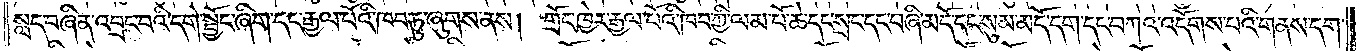སླད་བཞིན་འབྲང་བའི་དགེ་སྦྱོང་ཞིག་དང་རྒྱལ་པོའི་ཁབ་ཏུ་ཞུགས་ནས། གྲོང་ཁྱེར་རྒྱལ་པོའི་ཁབ་ཀྱི་ལམ་པོ་ཆེ་དང་སྲང་དང་བཞི་མདོ་དང་སུམ་མདོ་དག་དང་བཀའ་འདོགས་པའི་གནས་དག་
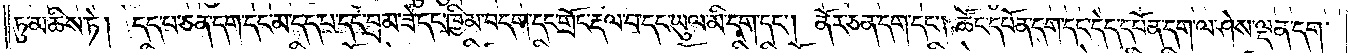ཏུ་མཆིས་ཏེ། དད་པ་ཅན་དག་དང་མ་དད་པ་དང་བྲམ་ཟེ་དང་ཁྱིམ་བདག་དང་གྲོང་རྡལ་བ་དང་ཡུལ་མི་དག་དང༌། ནོར་ཅན་དག་དང༌། ཚོང་དཔོན་དག་དང་དེད་དཔོན་དག་ལ་ཤེས་ལྡན་དག་
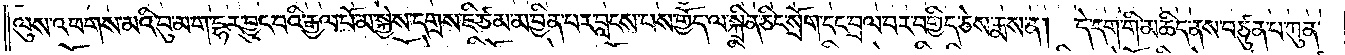ལུས་འཕགས་མའི་བུ་མ་ག་དྷར་བྱུང་བའི་རྒྱལ་པོ་མ་སྐྱེས་དགྲས་ཇི་ཙམ་མ་བྱིན་པར་བླངས་པས་གྱོད་ལ་སྐྲིན་ཅིང་སྲོག་དང་བྲལ་བར་བགྱིད་ཅེས་རྨས་ན། དེ་དག་གི་མཆིད་ནས་བཙུན་པ་ཀུན་
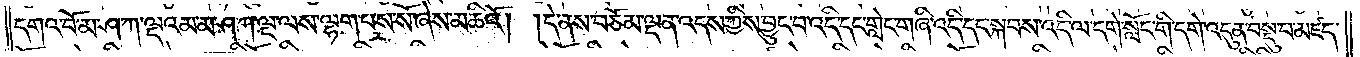དགའ་བོ་མ་ཤ་ཀ་ལྔའམ་མ་ཤ་ཀ་ལྔ་ལས་ལྷག་པས་སོ་ཞེས་མཆིའོ། །དེ་ནས་བཅོམ་ལྡན་འདས་ཀྱིས་བྱུང་བ་འདི་དང་གླེང་གཞི་འདི་དང་སྐབས་འདི་ལ་དགེ་སློང་གི་དགེ་འདུན་བསྡུ་བ་མཛད་
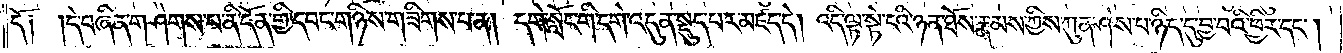དོ༑ ༑དེ་བཞིན་གཤེགས་པ་ནི་དོན་གྱི་དབང་གཉིས་གཟིགས་པ་ན། དགེ་སློང་གི་དགེ་འདུན་སྡུད་པར་མཛད་དེ། འདི་ལྟ་སྟེ་ངའི་ཉན་ཐོས་རྣམས་ཀྱིས་ཀུན་ཤེས་པ་ཉིད་དུ་བྱ་བའི་ཕྱིར་དང༌།
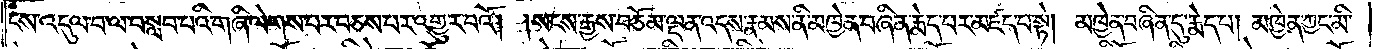ངས་འདུལ་བ་ལ་བསླབ་པའི་གཞི་ལེགས་པར་བཅས་པར་འགྱུར་བའོ། །སངས་རྒྱས་བཅོམ་ལྡན་འདས་རྣམས་ནི་མཁྱེན་བཞིན་རྨེད་པར་མཛད་པ་སྟེ། མཁྱེན་བཞིན་དུ་རྨེད་པ། མཁྱེན་ཀྱང་མི་
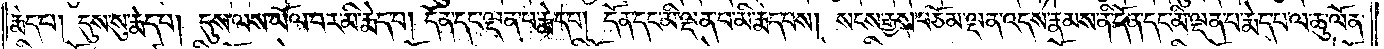རྨེད་པ། དུས་སུ་རྨེད་པ། དུས་ལས་ཡོལ་བར་མི་རྨེད་པ། དོན་དང་ལྡན་པ་རྨེད་པ། དོན་དང་མི་ལྡན་པ་མི་རྨེད་པས། སངས་རྒྱས་བཅོམ་ལྡན་འདས་རྣམས་ནི་དོན་དང་མི་ལྡན་པ་རྨེད་པ་ལ་ཆུ་ལོན་
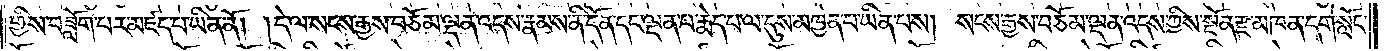གྱིས་བཟློག་པར་མཛད་པ་ཡིན་ནོ། །དེ་ལ་སངས་རྒྱས་བཅོམ་ལྡན་འདས་རྣམས་ནི་དོན་དང་ལྡན་པ་རྨེད་པ་ལ་དུས་མཁྱེན་པ་ཡིན་པས། སངས་རྒྱས་བཅོམ་ལྡན་འདས་ཀྱིས་སྔོན་རྫ་མཁན་དགེ་སློང་
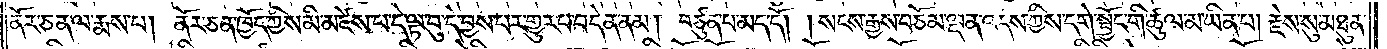ནོར་ཅན་ལ་རྨས་པ། ནོར་ཅན་ཁྱོད་ཀྱིས་མི་མཛེས་པ་དེ་ལྟ་བུ་དེ་བྱས་པར་གྱུར་པ་བདེན་ནམ། བཙུན་པ་མད་དོ། །སངས་རྒྱས་བཅོམ་ལྡན་འདས་ཀྱིས་དགེ་སྦྱོང་གི་ཚུལ་མ་ཡིན་པ། རྗེས་སུ་མཐུན་
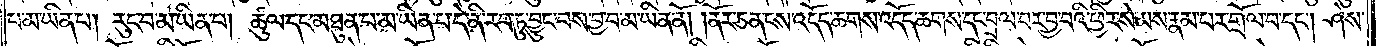པ་མ་ཡིན་པ། རུང་བ་མ་ཡིན་པ། ཚུལ་དང་མཐུན་པ་མ་ཡིན་པ་དེ་ནི་རབ་ཏུ་བྱུང་བས་བྱ་བ་མ་ཡིན་ནོ། །ནོར་ཅན་ངས་འདོད་ཆགས་འདོད་ཆགས་དང་བྲལ་བར་བྱ་བའི་ཕྱིར་སེམས་རྣམ་པར་གྲོལ་བ་དང༌། ཤེས་
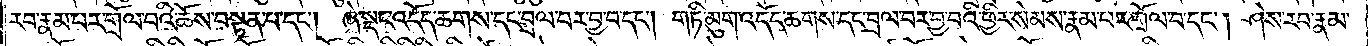རབ་རྣམ་པར་གྲོལ་བའི་ཆོས་བསྟན་པ་དང༌། ཞེ་སྡང་འདོད་ཆགས་དང་བྲལ་བར་བྱ་བ་དང༌། གཏི་མུག་འདོད་ཆགས་དང་བྲལ་བར་བྱ་བའི་ཕྱིར་སེམས་རྣམ་པར་གྲོལ་བ་དང༌། ཤེས་རབ་རྣམ་
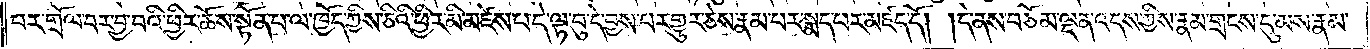པར་གྲོལ་བར་བྱ་བའི་ཕྱིར་ཆོས་སྟོན་པ་ལ་ཁྱོད་ཀྱིས་ཅིའི་ཕྱིར་མི་མཛེས་པ་དེ་ལྟ་བུ་དེ་བྱས་པར་གྱུར་ཅེས་རྣམ་པར་སྨད་པར་མཛད་དོ། །དེ་ནས་བཅོམ་ལྡན་འདས་ཀྱིས་རྣམ་གྲངས་དུ་མས་རྣམ་
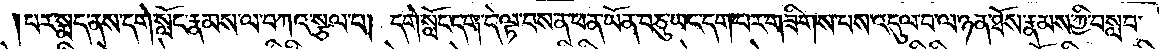པར་སྨད་ནས་དགེ་སློང་རྣམས་ལ་བཀའ་སྩལ་པ། དགེ་སློང་དག་དེ་ལྟ་བས་ན་ཕན་ཡོན་བཅུ་ཡང་དག་པར་གཟིགས་པས་འདུལ་བ་ལ་ཉན་ཐོས་རྣམས་ཀྱི་བསླབ་
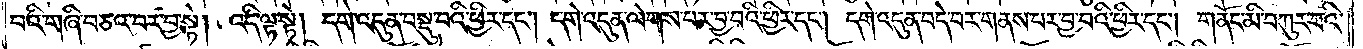པའི་གཞི་བཅའ་བར་བྱ་སྟེ། འདི་ལྟ་སྟེ། དགེ་འདུན་བསྡུ་བའི་ཕྱིར་དང༌། དགེ་འདུན་ལེགས་པར་བྱ་བའི་ཕྱིར་དང༌། དགེ་འདུན་བདེ་བར་གནས་པར་བྱ་བའི་ཕྱིར་དང༌། གནོང་མི་བཀུར་བའི་
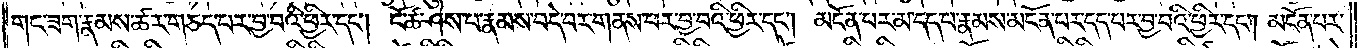གང་ཟག་རྣམས་ཚར་གཅད་པར་བྱ་བའི་ཕྱིར་དང༌། ངོ་ཚ་ཤེས་པ་རྣམས་བདེ་བར་གནས་པར་བྱ་བའི་ཕྱིར་དང༌། མངོན་པར་མ་དད་པ་རྣམས་མངོན་པར་དད་པར་བྱ་བའི་ཕྱིར་དང༌། མངོན་པར་
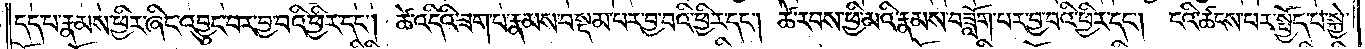དད་པ་རྣམས་ཕྱིར་ཞིང་འབྱུང་བར་བྱ་བའི་ཕྱིར་དང༌། ཚེ་འདིའི་ཟག་པ་རྣམས་བསྡམ་པར་བྱ་བའི་ཕྱིར་དང༌། ཚེ་རབས་ཕྱི་མའི་རྣམས་བཟློག་པར་བྱ་བའི་ཕྱིར་དང༌། ངའི་ཚངས་པར་སྤྱོད་པ་སྐྱེ་
